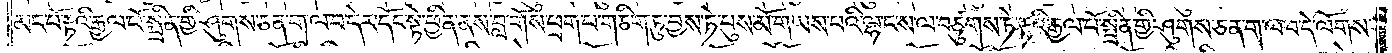མང་པོ་རྟའི་རྒྱལ་པོ་སྤྲིན་གྱི་ཤུགས་ཅན་ག་ལ་བ་དེར་དོང་སྟེ་ཕྱིན་ནས་བླ་གོས་ཕྲག་པ་གཅིག་ཏུ་བྱས་ཏེ་པུས་མོ་གཡས་པའི་ལྷ་ང་ས་ལ་བཙུགས་ཏེ་རྟའི་རྒྱལ་པོ་སྤྲིན་གྱི་ཤུགས་ཅན་ག་ལ་བ་དེ་ལོགས་
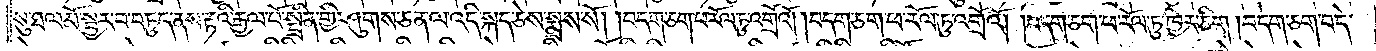སུ་ཐལ་མོ་སྦྱར་བ་བཏུད་ནས་རྟའི་རྒྱལ་པོ་སྤྲིན་གྱི་ཤུགས་ཅན་ལ་འདི་སྐད་ཅེས་སྨྲས་སོ། །བདག་ཅག་ཕ་རོལ་ཏུ་འགྲོའོ། །བདག་ཅག་ཕ་རོལ་ཏུ་འགྲོའོ། །བདག་ཅག་ཕ་རོལ་ཏུ་ཁྱེར་ཅིག །བདག་ཅག་བདེ་
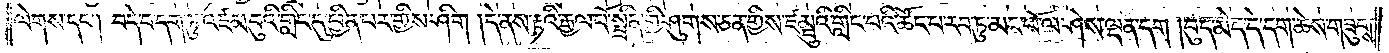ལེགས་དང༌། བདེ་བ་དག་ཏུ་འཛམ་བུའི་གླིང་དུ་ཕྱིན་པར་གྱིས་ཤིག །དེ་ནས་རྟའི་རྒྱལ་པོ་སྤྲིན་གྱི་ཤུགས་ཅན་གྱིས་ཛམྦུའི་གླིང་པའི་ཚོང་པ་རབ་ཏུ་མང་པོ་ལ་ཤེས་ལྡན་དག །བུད་མེད་དེ་དག་ཆེས་གཟུགས་
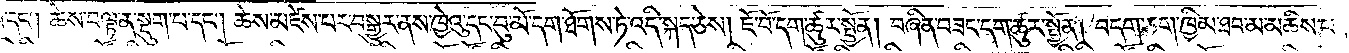བཟང་བ་དང༌། ཆེས་བལྟ་ན་སྡུག་པ་དང༌། ཆེས་མཛེས་པར་བསྒྱུར་པ་ན་ཁྱེའུ་དང་བུ་མོ་དག་ཐོགས་ཏེ་འདི་སྐད་ཅེས། ཇོ་བོ་དག་ཚུར་སྤྱོན། བཞིན་བཟང་དག་ཚུར་སྤྱོན། བདག་ཅག་ཁྱིམ་ཐབ་མ་མཆིས་པ་
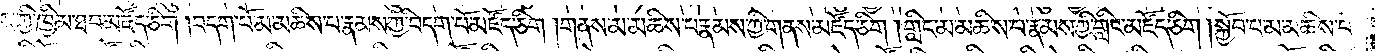རྣམས་ཀྱི་ཁྱིམ་ཐབ་མཛོད་ཅིག །བདག་པོ་མ་མཆིས་པ་རྣམས་ཀྱི་བདག་པོ་མཛོད་ཅིག །གནས་མ་མཆིས་པ་རྣམས་ཀྱི་གནས་མཛོད་ཅིག །གླིང་མ་མཆིས་པ་རྣམས་ཀྱི་གླིང་མཛོད་ཅིག །སྐྱོབ་པ་མ་མཆིས་པ་
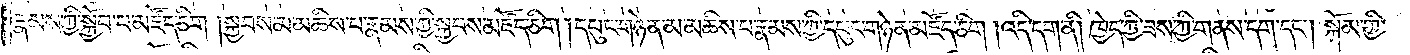རྣམས་ཀྱི་སྐྱོབ་པ་མཛོད་ཅིག །སྐྱབས་མ་མཆིས་པ་རྣམས་ཀྱི་སྐྱབས་མཛོད་ཅིག །དཔུང་གཉེན་མ་མཆིས་པ་རྣམས་ཀྱི་དཔུང་གཉེན་མཛོད་ཅིག །འདི་དག་ནི། ཁྱེད་ཀྱི་ཟས་ཀྱི་གནས་དག་དང༌། སྐོམ་གྱི་
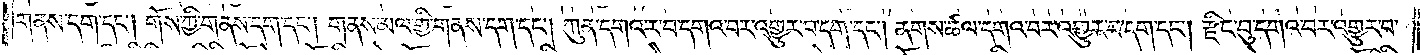གནས་དག་དང༌། གོས་ཀྱི་གནས་དག་དང༌། གནས་མལ་གྱི་གནས་དག་དང༌། ཀུན་དགའ་ར་བ་དགའ་བར་འགྱུར་བ་དག་དང༌། ནགས་ཚལ་དགའ་བར་འགྱུར་བ་དག་དང༌། རྫིང་བུ་དགའ་བར་འགྱུར་བ་
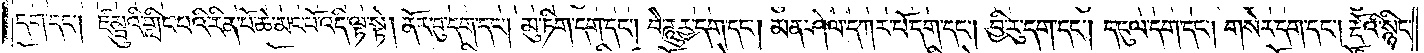དག་དང༌། ཛམྦུའི་གླིང་པའི་རིན་པོ་ཆེ་མང་པོ་འདི་ལྟ་སྟེ། ནོར་བུ་དག་དང༌། མུ་ཏིག་དག་དང༌། བཻ་ཌཱུརྱ་དག་དང༌། མན་ཤེལ་དཀར་པོ་དག་དང༌། བྱི་རུ་དག་དང༌། དངུལ་དག་དང༌། གསེར་དག་དང༌། རྡོའི་སྙིང་
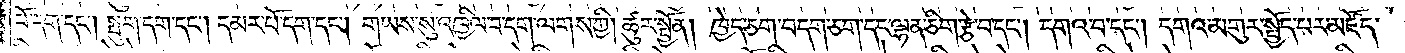པོ་དག་དང༌། སྤུག་དག་དང༌། དམར་པོ་དག་དང༌། གཡས་སུ་འཁྱིལ་བ་དག་ལགས་ཀྱི། ཚུར་སྤྱོན། ཁྱེད་ཅག་བདག་ཅག་དང་ལྷན་ཅིག་རྩེ་བ་དང༌། དགའ་བ་དང༌། དགའ་མགུར་སྤྱོད་པར་མཛོད་
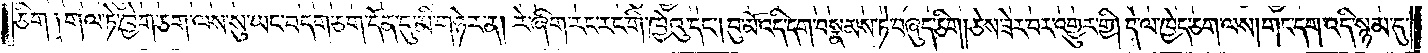ཅིག །གལ་ཏེ་ཁྱེ་གཅག་ལས་སུ་ཡང་བདག་ཅག་དོན་དུ་མི་གཉེར་ན། རེ་ཞིག་རང་རང་གི་ཁྱེའུ་དང༌། བུ་མོ་འདི་དག་བསྣམས་ཏེ་བཞུད་ཅིག། ཅེས་ཟེར་བར་འགྱུར་གྱི། དེ་ལ་ཁྱེད་ཅག་ལས་གང་དག་འདི་སྙམ་དུ་
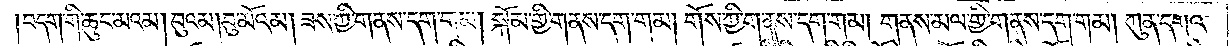བདག་གི་ཆུང་མའམ། བུའམ། བུ་མོའམ། ཟས་ཀྱི་གནས་དག་གམ། སྐོམ་གྱི་གནས་དག་གམ། གོས་ཀྱི་གནས་དག་གམ། གནས་མལ་གྱི་གནས་དག་གམ། ཀུན་དགའ་
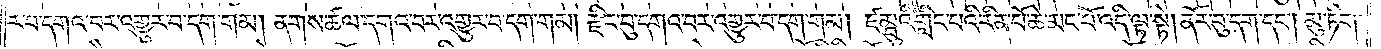ར་བ་དགའ་བར་འགྱུར་བ་དག་གམ། ནགས་ཚལ་དགའ་བར་འགྱུར་བ་དག་གམ། རྫིང་བུ་དགའ་བར་འགྱུར་བ་དག་གམ། ཛམྦུའི་གླིང་པའི་རིན་པོ་ཆེ་མང་པོ་འདི་ལྟ་སྟེ། ནོར་བུ་དག་དང༌། མུ་ཏིག་
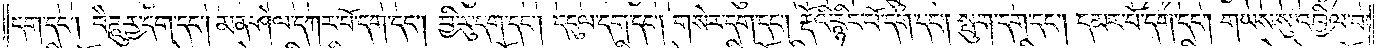དག་དང༌། བཻ་ཌཱུཪྻ་དག་དང༌། མན་ཤེལ་དཀར་པོ་དག་དང༌། བྱི་རུ་དག་དང༌། དངུལ་དག་དང༌། གསེར་དག་དང༌། རྡོའི་རྙིང་པོ་དག་དང༌། སྤུག་དག་དང༌། དམར་པོ་དག་དང༌། གཡས་སུ་འཁྱིལ་བ་
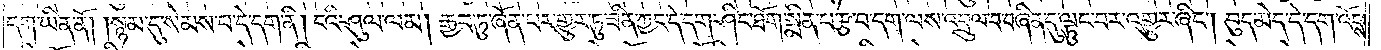དག་ཡིན་ནོ། །སྙམ་དུ་སེམས་པ་དེ་དག་ནི། ངའི་ཤུལ་ལམ། རྒྱབ་ཏུ་ཞོན་པར་གྱུར་ཏུ་ཟིན་ཀྱང་དེ་དག་ཤིང་ཐོག་སྨིན་པ་རྩ་བ་དག་ལས་འབྲུལ་བ་བཞིན་དུ་ལྟུང་བར་འགྱུར་ཞིང༌། བུད་མེད་དེ་དག་འོངས་
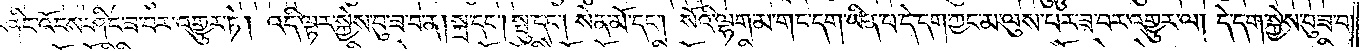ཤིང་འོངས་ཤིང་ཟ་བར་འགྱུར་ཏེ། འདི་ལྟར་སྐྱེས་བུ་ཟ་བ་ན། སྐྲ་དང༌། སྤུ་དང༌། སེན་མོ་དང༌། སོའི་ལྷག་མ་གང་དག་ཡིན་པ་དེ་དག་ཀྱང་མ་ལུས་པར་ཟ་བར་འགྱུར་ལ། དེ་དག་སྐྱེས་བུ་ཟ་བ་
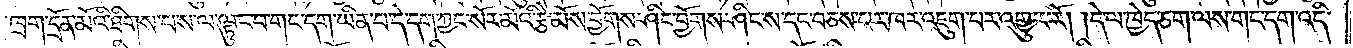ཁྲག་དྲོན་མོའི་ཐིགས་པ་ས་ལ་ལྟུང་བ་གང་དག་ཡིན་པ་དེ་དག་ཀྱང་སོར་མོའི་རྩེ་མོས་བྱོགས་ཤིང་བྱོགས་ཤིང་ས་དང་བཅས་པར་ཁར་འཇུག་པར་འགྱུར་རོ། །དེ་ལ་ཁྱེད་ཅག་ལས་གང་དག་འདི་
